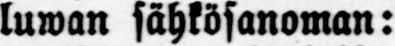luwan sähkösanoman:
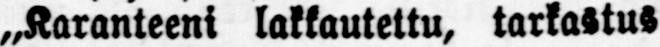Karanteeni lakkautettu, tarkastus
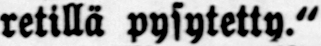retillä pysytetty."
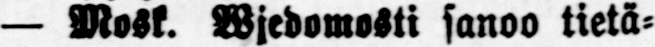— Mosk. Wjedomosti sanoo tietä-
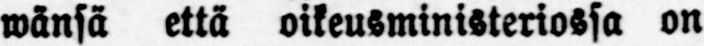wänsä että oikeusministeriössä on
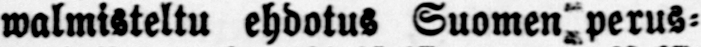walmisteltu ehdotus Suomen perus-
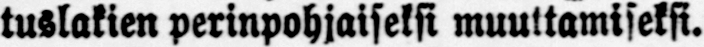tuslakien perinpohjaiseksi muuttamiseksi.
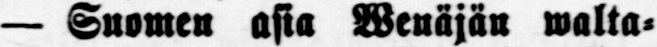— Suomea asia Wenäjän walta-
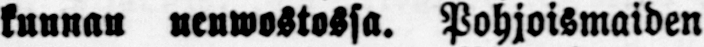kuunan neuvostossa. Pohjoismaiden
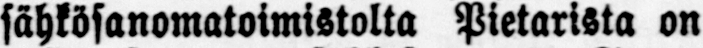sähkösanomatoimistolta Pietarista on
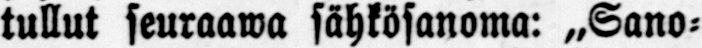tullut seuraawa sähkösanoma: sano-
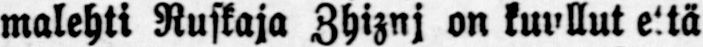malehti Ruskaja Zhiznj on kuullut että
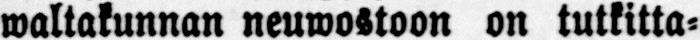waltakunnan neuwostoon on tutkitta-
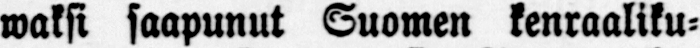waksi saapunut Suomen kenraaliku-
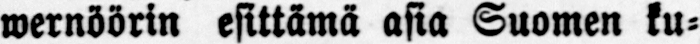wernöörin esittämä asia Suomen ku-
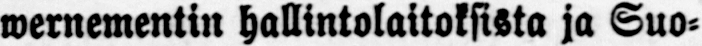wernementin hallintolaitoksista ja Suo-
